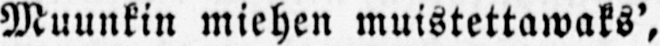Muunkin miehen muistettawaks',
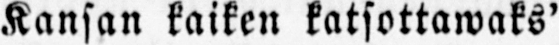Kansan kaiken katsottawaks'
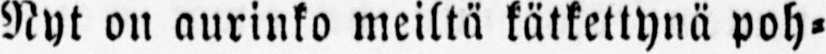Nyt on aurinko meiltä kätkettynä poh-
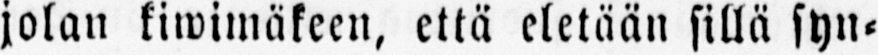jolan kiwimäkeen, että eletään sillä syn-
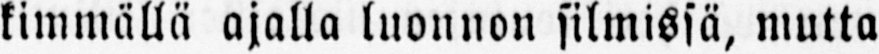kimmällä ajalla luonnon silmissä, mutta
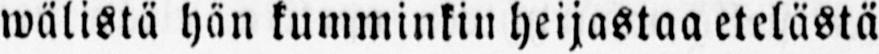wälistä hän kumminkin heijastaa etelästä
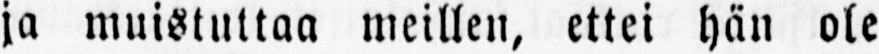ja muistuttaa meillen, ettei hän ole
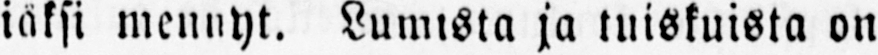iäksi mennyt. Lumista ja tuiskuista on
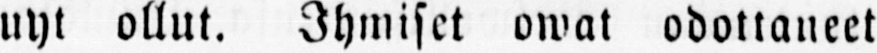uyt ollut. Ihmiset owat odottaneet
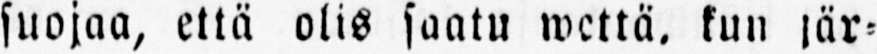suojaa, että olis saatu wettä, kun jär-
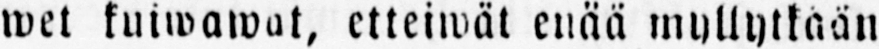wet kuiwawat, etteiwät enää myllytkään
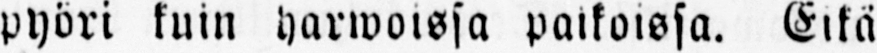pyöri kuin harwoissa paikoissa. Eikä
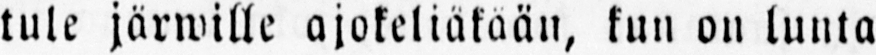tule järwille ajokeliäkään, kun on lunta
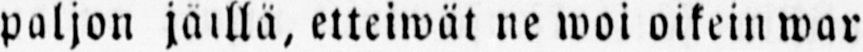paljon jäillä, etteiwät ne woi oikein war
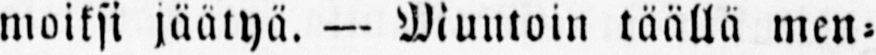moiksi jäätyä. — Muutoin täällä men-
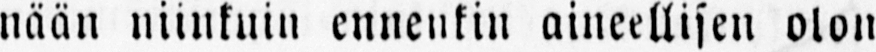nään niinkuin ennenkin aineellisen olon
